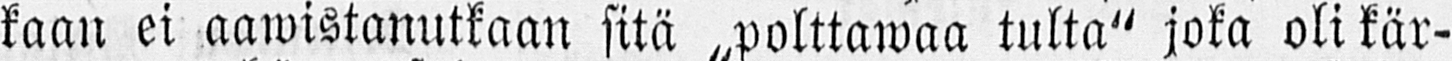kaan ei aawistanutkaan sitä „polttawaa tulta" joka oli kär-
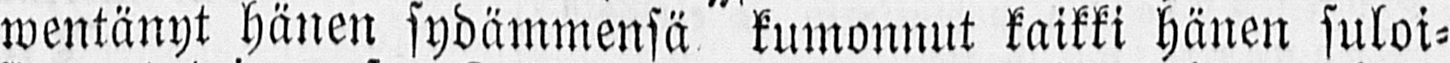wentänyt hänen sydämmensä kumonnut kaikki hänen suloi-
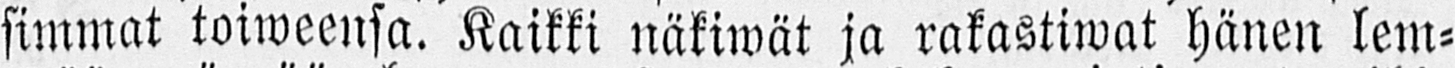simmat toiweensa. Kaikki näkiwät ja rakastiwat hänen lem-
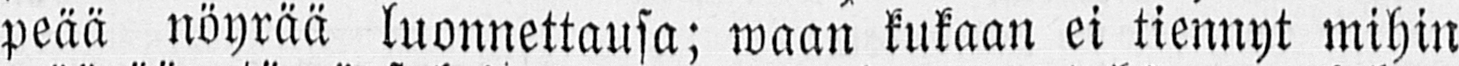peää nöyrää luonnettausa; waan kukaan ei tiennyt mihin
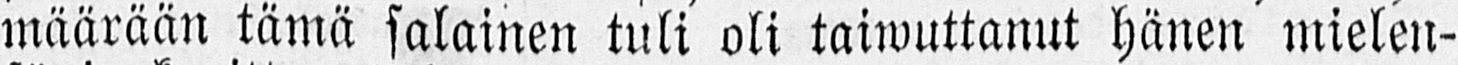määrään tämä salainen tuli oli taiwuttanut hänen mielen-
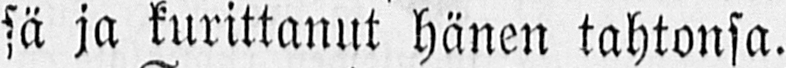sä ja kurittanut hänen tahtonsa.
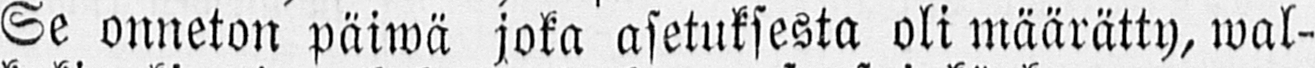Se onneton päiwä joka asetuksesta oli määrätty, wal-
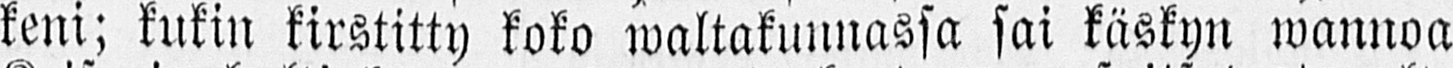keni; kukin kirstitty koko waltakunnassa sai käskyn wannoa
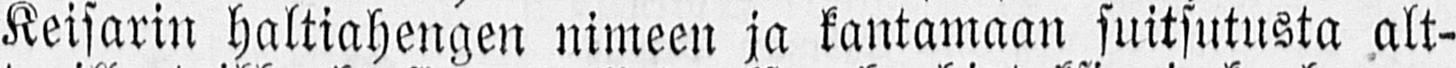Keisarin haltiahengen nimeen ja kantamaan suitsutusta alt-
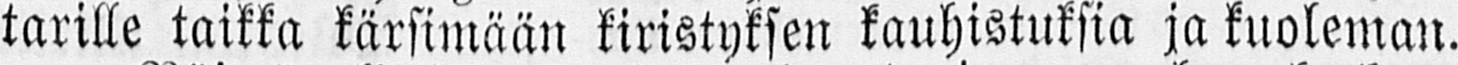tarille taikka kärsimään kiristyksen kauhistuksia ja kuoleman.
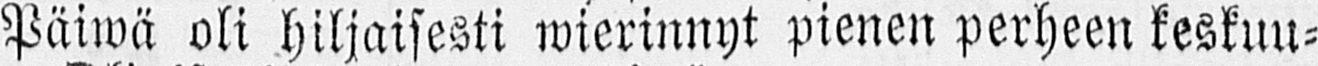Päiwä oli hiljaisesti wierinnyt pienen perheen keskuu-
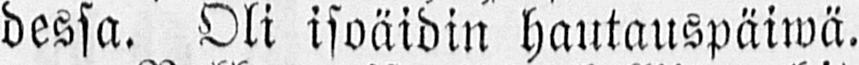dessa. Oli isoäidin hantauspäiwä.
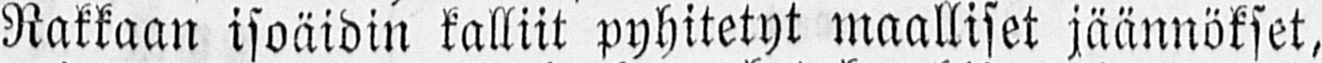Rakkaan isoäidin kalliit pyhitetyt maalliset jäännökset,
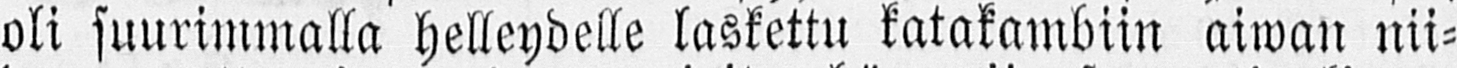oli suurimmalla helleydelle laskettu katakambiin aiwan nii-
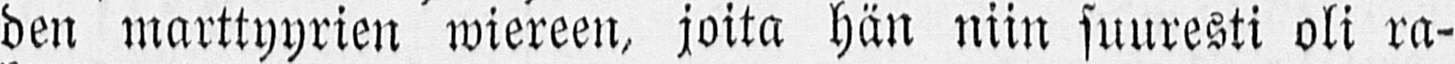den marttyyrien wiereen, joita hän niin suuresti oli ra-
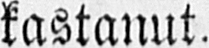kastanut.
